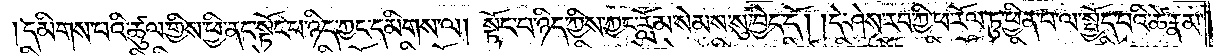དམིགས་པའི་ཚུལ་གྱིས་ཕྱི་ནང་སྟོང་པ་ཉིད་ཀྱང་དམིགས་ལ། སྟོང་པ་ཉིད་ཀྱིས་ཀྱང་རློམ་སེམས་སུ་བྱེད་དོ། །དེ་ཤེས་རབ་ཀྱི་ཕ་རོལ་ཏུ་ཕྱིན་པ་ལ་སྤྱོད་པའི་ཚེ་རྣམ་
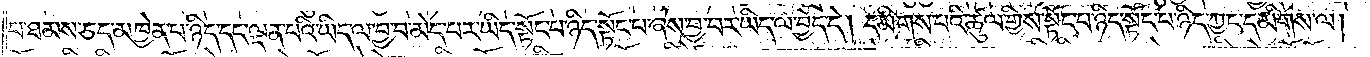པ་ཐམས་ཅད་མཁྱེན་པ་ཉིད་དང་ལྡན་པའི་ཡིད་ལ་བྱ་བ་མེད་པར་ཡིད་སྟོང་པ་ཉིད་སྟོང་པ་ཞེས་བྱ་བར་ཡིད་ལ་བྱེད་དེ། དམིགས་པའི་ཚུལ་གྱིས་སྟོང་པ་ཉིད་སྟོང་པ་ཉིད་ཀྱང་དམིགས་ལ།
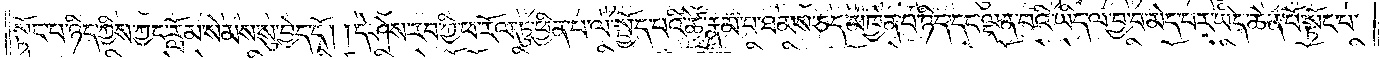སྟོང་པ་ཉིད་ཀྱིས་ཀྱང་རློམ་སེམས་སུ་བྱེད་དོ། །དེ་ཤེས་རབ་ཀྱི་ཕ་རོལ་ཏུ་ཕྱིན་པ་ལ་སྤྱོད་པའི་ཚེ་རྣམ་པ་ཐམས་ཅད་མཁྱེན་པ་ཉིད་དང་ལྡན་པའི་ཡིད་ལ་བྱ་བ་མེད་པར་ཡིད་ཆེན་པོ་སྟོང་པ་
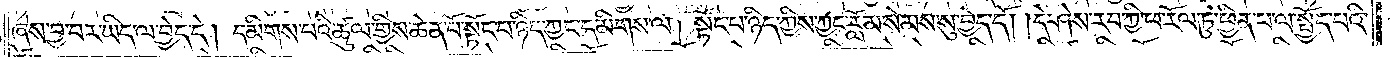ཞེས་བྱ་བར་ཡིད་ལ་བྱེད་དེ། དམིགས་པའི་ཚུལ་གྱིས་ཆེན་པོ་སྟོང་པ་ཉིད་ཀྱང་དམིགས་ལ། སྟོང་པ་ཉིད་ཀྱིས་ཀྱང་རློམ་སེམས་སུ་བྱེད་དོ། །དེ་ཤེས་རབ་ཀྱི་ཕ་རོལ་ཏུ་ཕྱིན་པ་ལ་སྤྱོད་པའི་
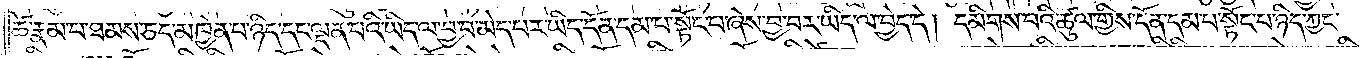ཚེ་རྣམ་པ་ཐམས་ཅད་མཁྱེན་པ་ཉིད་དང་ལྡན་པའི་ཡིད་ལ་བྱ་བ་མེད་པར་ཡིད་དོན་དམ་པ་སྟོང་པ་ཞེས་བྱ་བར་ཡིད་ལ་བྱེད་དེ། དམིགས་པའི་ཚུལ་གྱིས་དོན་དམ་པ་སྟོང་པ་ཉིད་ཀྱང་
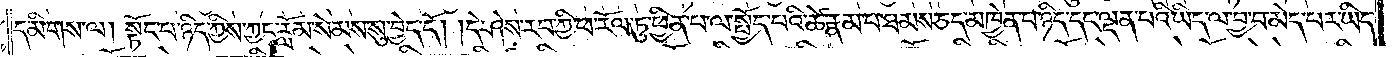དམིགས་ལ། སྟོང་པ་ཉིད་ཀྱིས་ཀྱང་རློམ་སེམས་སུ་བྱེད་དོ། །དེ་ཤེས་རབ་ཀྱི་ཕ་རོལ་ཏུ་ཕྱིན་པ་ལ་སྤྱོད་པའི་ཚེ་རྣམ་པ་ཐམས་ཅད་མཁྱེན་པ་ཉིད་དང་ལྡན་པའི་ཡིད་ལ་བྱ་བ་མེད་པར་ཡིད་
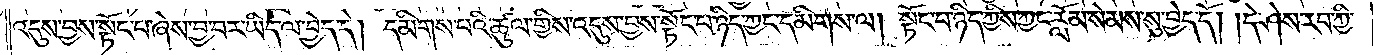འདུས་བྱས་སྟོང་པ་ཞེས་བྱ་བར་ཡིད་ལ་བྱེད་དེ། དམིགས་པའི་ཚུལ་གྱིས་འདུས་བྱས་སྟོང་པ་ཉིད་ཀྱང་དམིགས་ལ། སྟོང་པ་ཉིད་ཀྱིས་ཀྱང་རློམ་སེམས་སུ་བྱེད་དོ། །དེ་ཤེས་རབ་ཀྱི་
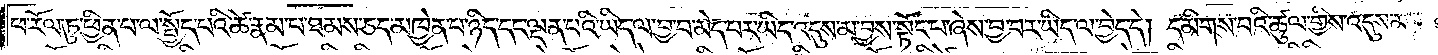ཕ་རོལ་ཏུ་ཕྱིན་པ་ལ་སྤྱོད་པའི་ཚེ་རྣམ་པ་ཐམས་ཅད་མཁྱེན་པ་ཉིད་དང་ལྡན་པའི་ཡིད་ལ་བྱ་བ་མེད་པར་ཡིད་འདུས་མ་བྱས་སྟོང་པ་ཞེས་བྱ་བར་ཡིད་ལ་བྱེད་དེ། དམིགས་པའི་ཚུལ་གྱིས་འདུས་མ་
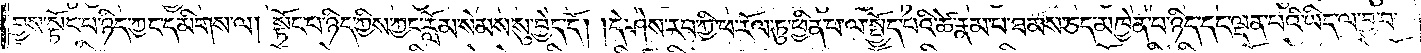བྱས་སྟོང་པ་ཉིད་ཀྱང་དམིགས་ལ། སྟོང་པ་ཉིད་ཀྱིས་ཀྱང་རློམ་སེམས་སུ་བྱེད་དོ། །དེ་ཤེས་རབ་ཀྱི་ཕ་རོལ་ཏུ་ཕྱིན་པ་ལ་སྤྱོད་པའི་ཚེ་རྣམ་པ་ཐམས་ཅད་མཁྱེན་པ་ཉིད་དང་ལྡན་པའི་ཡིད་ལ་བྱ་བ་
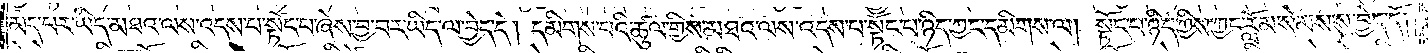མེད་པར་ཡིད་མཐའ་ལས་འདས་པ་སྟོང་པ་ཞེས་བྱ་བར་ཡིད་ལ་བྱེད་དེ། དམིགས་པའི་ཚུལ་གྱིས་མཐའ་ལས་འདས་པ་སྟོང་པ་ཉིད་ཀྱང་དམིགས་ལ། སྟོང་པ་ཉིད་ཀྱིས་ཀྱང་རློམ་སེམས་སུ་བྱེད་དོ༎
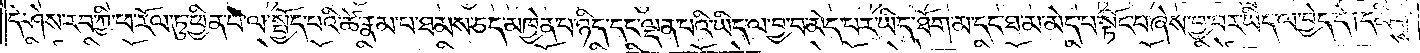དེ་ཤེས་རབ་ཀྱི་ཕ་རོལ་ཏུ་ཕྱིན་པ་ལ་སྤྱོད་པའི་ཚེ་རྣམ་པ་ཐམས་ཅད་མཁྱེན་པ་ཉིད་དང་ལྡན་པའི་ཡིད་ལ་བྱ་བ་མེད་པར་ཡིད་ཐོག་མ་དང་ཐ་མ་མེད་པ་སྟོང་པ་ཞེས་བྱ་བར་ཡིད་ལ་བྱེད་དེ། དམིགས་
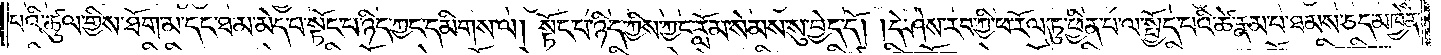པའི་ཚུལ་གྱིས་ཐོག་མ་དང་ཐ་མ་མེད་པ་སྟོང་པ་ཉིད་ཀྱང་དམིགས་ལ། སྟོང་པ་ཉིད་ཀྱིས་ཀྱང་རློམ་སེམས་སུ་བྱེད་དོ། །དེ་ཤེས་རབ་ཀྱི་ཕ་རོལ་ཏུ་ཕྱིན་པ་ལ་སྤྱོད་པའི་ཚེ་རྣམ་པ་ཐམས་ཅད་མཁྱེན་
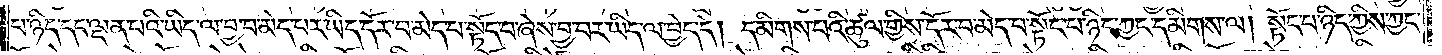པ་ཉིད་དང་ལྡན་པའི་ཡིད་ལ་བྱ་བ་མེད་པར་ཡིད་དོར་བ་མེད་པ་སྟོང་པ་ཞེས་བྱ་བར་ཡིད་ལ་བྱེད་དེ། དམིགས་པའི་ཚུལ་གྱིས་དོར་བ་མེད་པ་སྟོང་པ་ཉིད་ཀྱང་དམིགས་ལ། སྟོང་པ་ཉིད་ཀྱིས་ཀྱང་
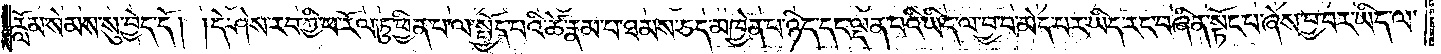རློམ་སེམས་སུ་བྱེད་དོ། །དེ་ཤེས་རབ་ཀྱི་ཕ་རོལ་ཏུ་ཕྱིན་པ་ལ་སྤྱོད་པའི་ཚེ་རྣམ་པ་ཐམས་ཅད་མཁྱེན་པ་ཉིད་དང་ལྡན་པའི་ཡིད་ལ་བྱ་བ་མེད་པར་ཡིད་རང་བཞིན་སྟོང་པ་ཞེས་བྱ་བར་ཡིད་ལ་
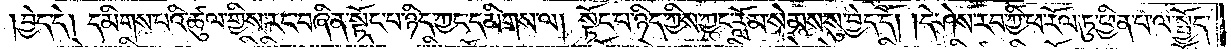བྱེད་དེ། དམིགས་པའི་ཚུལ་གྱིས་རང་བཞིན་སྟོང་པ་ཉིད་ཀྱང་དམིགས་ལ། སྟོང་པ་ཉིད་ཀྱིས་ཀྱང་རློམ་སེམས་སུ་བྱེད་དོ། །དེ་ཤེས་རབ་ཀྱི་ཕ་རོལ་ཏུ་ཕྱིན་པ་ལ་སྤྱོད་
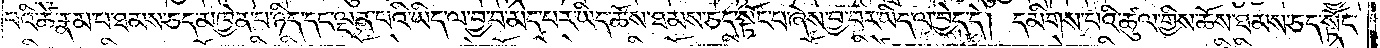པའི་ཚེ་རྣམ་པ་ཐམས་ཅད་མཁྱེན་པ་ཉིད་དང་ལྡན་པའི་ཡིད་ལ་བྱ་བ་མེད་པར་ཡིད་ཆོས་ཐམས་ཅད་སྟོང་པ་ཞེས་བྱ་བར་ཡིད་ལ་བྱེད་དེ། དམིགས་པའི་ཚུལ་གྱིས་ཆོས་ཐམས་ཅད་སྟོང་
